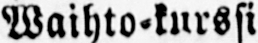Waihto-kurssi
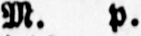M. P.
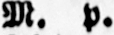M. P.
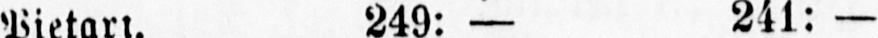Pietari. 249:— 24l: —
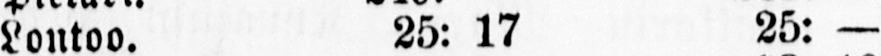Lontoo. 25: 17 25: —
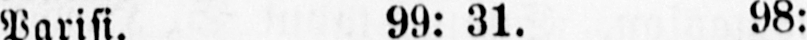Parisi. 99: 31. 98: 10
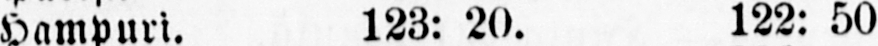Hampuri. 123: 20. 122: 50
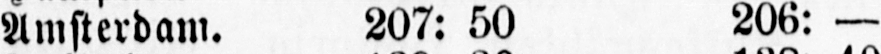Amsterdam. 207: 50 206: —
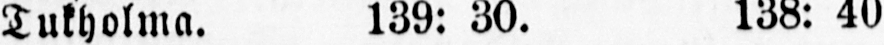Tukholma. 139: 30. 138: 40
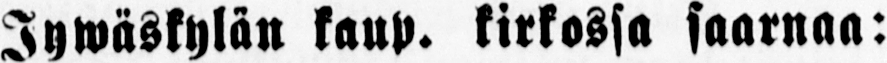Jywäskylän kaup. kirkossa saarnaa:
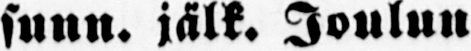sunn. jälk. Joulun
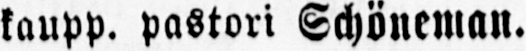kaupp. pastori Schöneman.
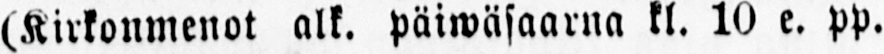(Kirkonmenot alk. päiwäsaarna kl. 10 e. pp.
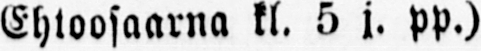Ehtoosaarna kl. 5 j. PP.)
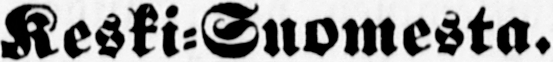Keski-Suomesta.
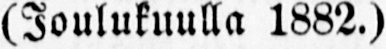(Joulukuulla 1882.)
